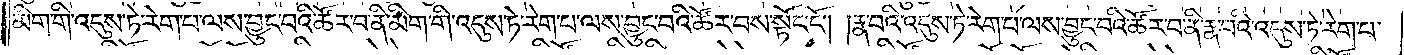མིག་གི་འདུས་ཏེ་རེག་པ་ལས་བྱུང་བའི་ཚོར་བ་ནི་མིག་གི་འདུས་ཏེ་རེག་པ་ལས་བྱུང་བའི་ཚོར་བས་སྟོང་ངོ༌། །རྣ་བའི་འདུས་ཏེ་རེག་པ་ལས་བྱུང་བའི་ཚོར་བ་ནི་རྣ་བའི་འདུས་ཏེ་རེག་པ་
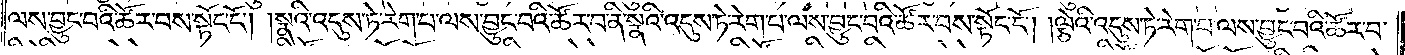ལས་བྱུང་བའི་ཚོར་བས་སྟོང་ངོ༌། །སྣའི་འདུས་ཏེ་རེག་པ་ལས་བྱུང་བའི་ཚོར་བ་ནི་སྣའི་འདུས་ཏེ་རེག་པ་ལས་བྱུང་བའི་ཚོར་བས་སྟོང་ངོ༌། །ལྕེའི་འདུས་ཏེ་རེག་པ་ལས་བྱུང་བའི་ཚོར་བ་
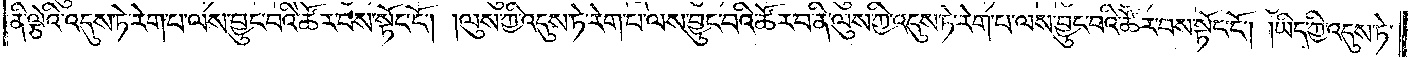ནི་ལྕེའི་འདུས་ཏེ་རེག་པ་ལས་བྱུང་བའི་ཚོར་བས་སྟོང་ངོ༌། །ལུས་ཀྱི་འདུས་ཏེ་རེག་པ་ལས་བྱུང་བའི་ཚོར་བ་ནི་ལུས་ཀྱི་འདུས་ཏེ་རེག་པ་ལས་བྱུང་བའི་ཚོར་བས་སྟོང་ངོ༌། །ཡིད་ཀྱི་འདུས་ཏེ་
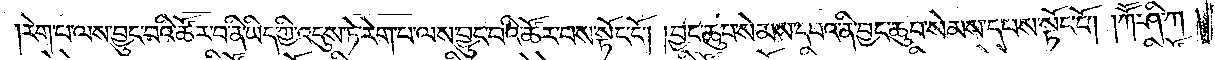རེག་པ་ལས་བྱུང་བའི་ཚོར་བ་ནི་ཡིད་ཀྱི་འདུས་ཏེ་རེག་པ་ལས་བྱུང་བའི་ཚོར་བས་སྟོང་ངོ༌། །བྱང་ཆུབ་སེམས་དཔའ་ནི་བྱང་ཆུབ་སེམས་དཔས་སྟོང་ངོ༌། །ཀཽ་ཤི་ཀ།
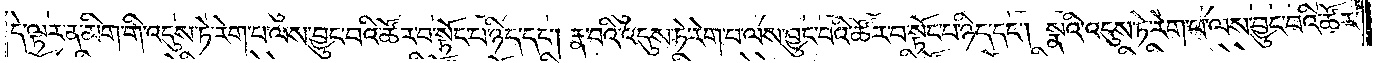དེ་ལྟར་ན་མིག་གི་འདུས་ཏེ་རེག་པ་ལས་བྱུང་བའི་ཚོར་བ་སྟོང་པ་ཉིད་དང༌། རྣ་བའི་འདུས་ཏེ་རེག་པ་ལས་བྱུང་བའི་ཚོར་བ་སྟོང་པ་ཉིད་དང༌། སྣའི་འདུས་ཏེ་རེག་པ་ལས་བྱུང་བའི་ཚོར་
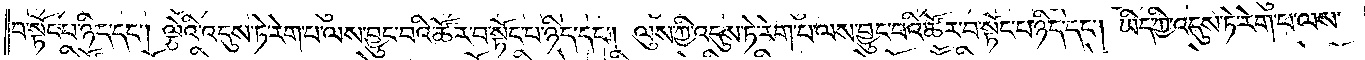བ་སྟོང་པ་ཉིད་དང༌། ལྕེའི་འདུས་ཏེ་རེག་པ་ལས་བྱུང་བའི་ཚོར་བ་སྟོང་པ་ཉིད་དང༌། ལུས་ཀྱི་འདུས་ཏེ་རེག་པ་ལས་བྱུང་བའི་ཚོར་བ་སྟོང་པ་ཉིད་དང༌། ཡིད་ཀྱི་འདུས་ཏེ་རེག་པ་ལས་
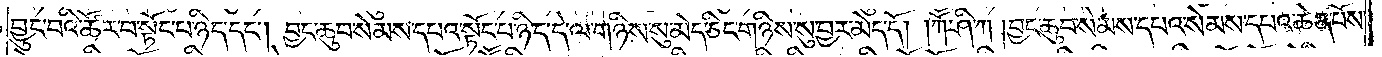བྱུང་བའི་ཚོར་བ་སྟོང་པ་ཉིད་དང༌། བྱང་ཆུབ་སེམས་དཔའ་སྟོང་པ་ཉིད་དེ་ལ་གཉིས་སུ་མེད་ཅིང་གཉིས་སུ་བྱར་མེད་དོ། །ཀཽ་ཤི་ཀ །བྱང་ཆུབ་སེམས་དཔའ་སེམས་དཔའ་ཆེན་པོས་
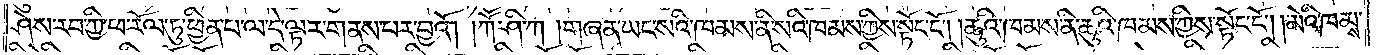ཤེས་རབ་ཀྱི་ཕ་རོལ་ཏུ་ཕྱིན་པ་ལ་དེ་ལྟར་གནས་པར་བྱའོ། །ཀཽ་ཤི་ཀ །གཞན་ཡང་སའི་ཁམས་ནི་སའི་ཁམས་ཀྱིས་སྟོང་ངོ༌། །ཆུའི་ཁམས་ནི་ཆུའི་ཁམས་ཀྱིས་སྟོང་ངོ༌། །མེའི་ཁམས་
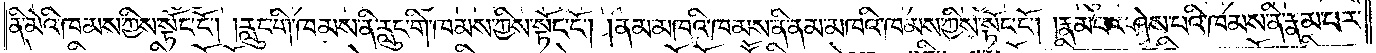ནི་མེའི་ཁམས་ཀྱིས་སྟོང་ངོ༌། །རླུང་གི་ཁམས་ནི་རླུང་གི་ཁམས་ཀྱིས་སྟོང་ངོ༌། །ནམ་མཁའི་ཁམས་ནི་ནམ་མཁའི་ཁམས་ཀྱིས་སྟོང་ངོ༌། །རྣམ་པར་ཤེས་པའི་ཁམས་ནི་རྣམ་པར་
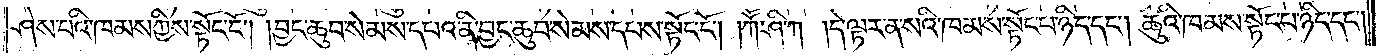ཤེས་པའི་ཁམས་ཀྱིས་སྟོང་ངོ༌། །བྱང་ཆུབ་སེམས་དཔའ་ནི་བྱང་ཆུབ་སེམས་དཔས་སྟོང་ངོ༌། །ཀཽ་ཤི་ཀ །དེ་ལྟར་ན་སའི་ཁམས་སྟོང་པ་ཉིད་དང༌། ཆུའི་ཁམས་སྟོང་པ་ཉིད་དང༌།
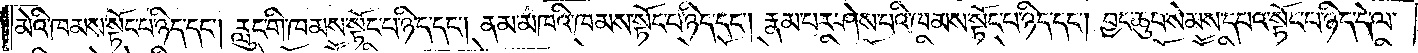མེའི་ཁམས་སྟོང་པ་ཉིད་དང༌། རླུང་གི་ཁམས་སྟོང་པ་ཉིད་དང༌། ནམ་མཁའི་ཁམས་སྟོང་པ་ཉིད་དང༌། རྣམ་པར་ཤེས་པའི་ཁམས་སྟོང་པ་ཉིད་དང༌། བྱང་ཆུབ་སེམས་དཔའ་སྟོང་པ་ཉིད་དེ་ལ་
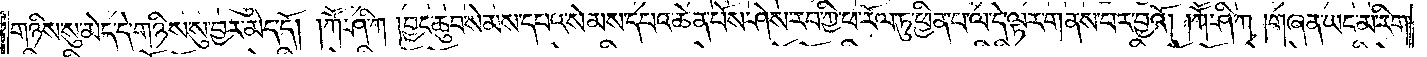གཉིས་སུ་མེད་དེ་གཉིས་སུ་བྱར་མེད་དོ། །ཀཽ་ཤི་ཀ །བྱང་ཆུབ་སེམས་དཔའ་སེམས་དཔའ་ཆེན་པོས་ཤེས་རབ་ཀྱི་ཕ་རོལ་ཏུ་ཕྱིན་པ་ལ་དེ་ལྟར་གནས་པར་བྱའོ། །ཀཽ་ཤི་ཀ །གཞན་ཡང་མ་རིག་
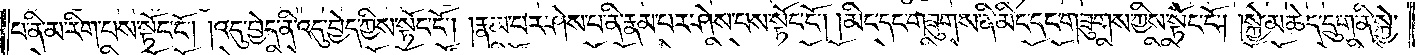པ་ནི་མ་རིག་པས་སྟོང་ངོ༌། །འདུ་བྱེད་ནི་འདུ་བྱེད་ཀྱིས་སྟོང་ངོ༌། །རྣམ་པར་ཤེས་པ་ནི་རྣམ་པར་ཤེས་པས་སྟོང་ངོ༌། །མིང་དང་གཟུགས་ནི་མིང་དང་གཟུགས་ཀྱིས་སྟོང་ངོ༌། །སྐྱེ་མཆེད་དྲུག་ནི་སྐྱེ་
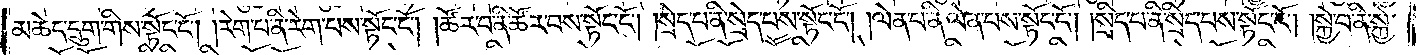མཆེད་དྲུག་གིས་སྟོང་ངོ༌། །རེག་པ་ནི་རེག་པས་སྟོང་ངོ༌། །ཚོར་བ་ནི་ཚོར་བས་སྟོང་ངོ༌། །སྲེད་པ་ནི་སྲེད་པས་སྟོང་ངོ༌། །ལེན་པ་ནི་ལེན་པས་སྟོང་ངོ༌། །སྲིད་པ་ནི་སྲིད་པས་སྟོང་ངོ༌། །སྐྱེ་བ་ནི་སྐྱེ་
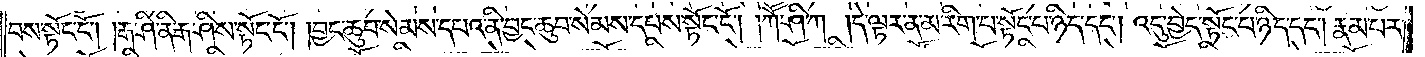བས་སྟོང་ངོ༌། །རྒ་ཤི་ནི་རྒ་ཤིས་སྟོང་ངོ༌། །བྱང་ཆུབ་སེམས་དཔའ་ནི་བྱང་ཆུབ་སེམས་དཔས་སྟོང་ངོ༌། །ཀཽ་ཤི་ཀ །དེ་ལྟར་ན་མ་རིག་པ་སྟོང་པ་ཉིད་དང༌། འདུ་བྱེད་སྟོང་པ་ཉིད་དང༌། རྣམ་པར་
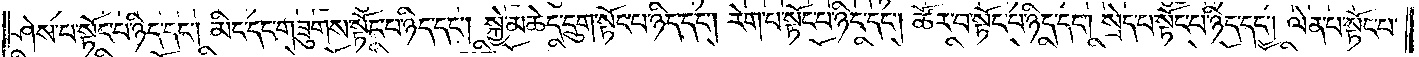ཤེས་པ་སྟོང་པ་ཉིད་དང༌། མིང་དང་གཟུགས་སྟོང་པ་ཉིད་དང༌། སྐྱེ་མཆེད་དྲུག་སྟོང་པ་ཉིད་དང༌། རེག་པ་སྟོང་པ་ཉིད་དང༌། ཚོར་བ་སྟོང་པ་ཉིད་དང༌། སྲེད་པ་སྟོང་པ་ཉིད་དང༌། ལེན་པ་སྟོང་པ་
